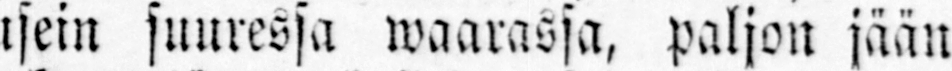usein suuressa waarassa, paljon jään
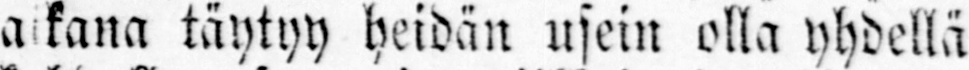aikana täytyy heidän usein olla yhdellä
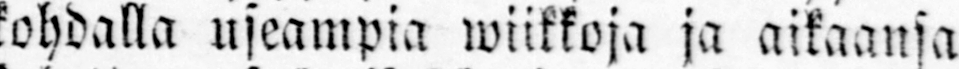kohdalla useampia wiikkoja ja aikaansa
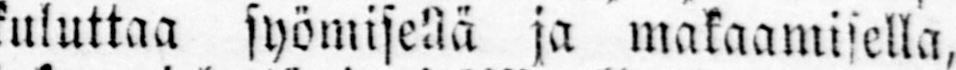kuluttaa syömisellä ja makaamisella,
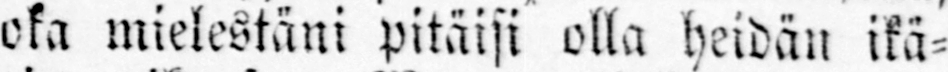joka mielestäni pitäisi olla heidän ikä-
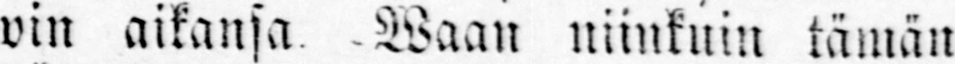win aikansa. Waan niinkuin tämän
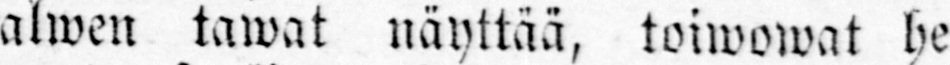talwen tawat näyttää, toiwowat he
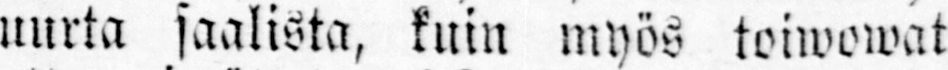suurta saalista, kuin myös toiwowat
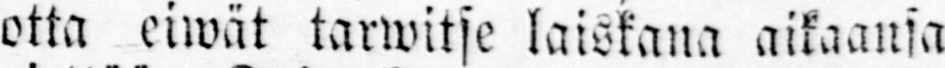jotta eiwät tarwitse laiskana aikaansa
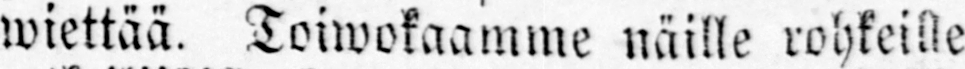wiettää. Toiwokaamme näille rohkeille
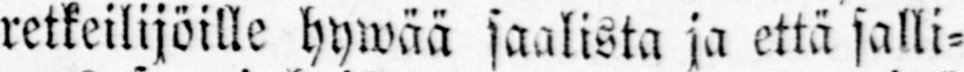retkeilijöille hywää saalista ja että salli-
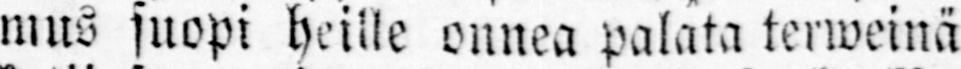mus suopi heille onnea palata terweinä
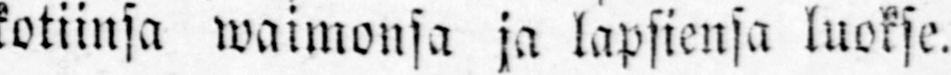kotiinsa waimonsa ja lapsiensa luokse.
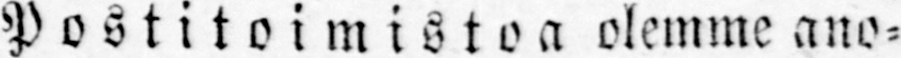Postitoimistoa olemme ano-
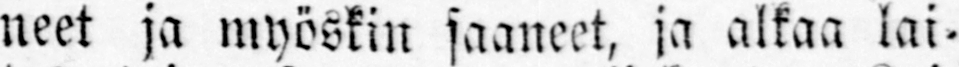neet ja myöskin saaneet, ja alkaa lai-
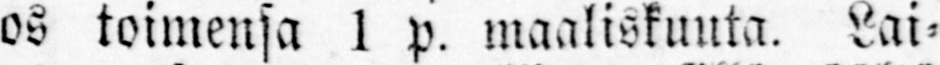tos toimensa 1 p. maaliskuuta. Lai-
